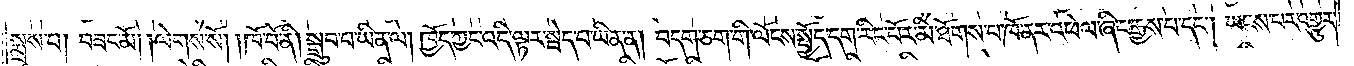སྨྲས་པ། བཟང་མོ། །ལེགས་སོ། །ཁོ་བོ་ནི། སྒྲུབ་པ་ཡིན་ལ། ཁྱོད་ཀྱང་འདི་ལྟར་སྦེད་པ་ཡིན་ན། བདག་ཅག་གི་ལོངས་སྤྱོད་དག་རིང་པོར་མི་ཐོགས་པ་ཁོ་ནར་འཕེལ་ཞིང་རྒྱས་པ་དང༌། ཡངས་པར་འགྱུར་
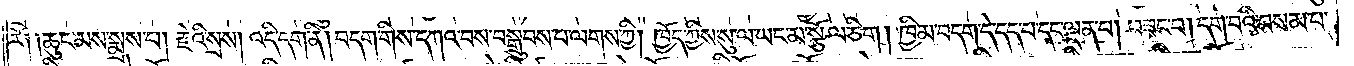རོ། །ཆུང་མས་སྨྲས་པ། རྗེའི་སྲས། འདི་དག་ནི། བདག་གིས་དཀའ་བས་བསྒྲུབས་པ་ལགས་ཀྱི། ཁྱོད་ཀྱིས་སུ་ལ་ཡང་མ་སྩོལ་ཅིག །ཁྱིམ་བདག་དེ་དད་པ་དང་ལྡན་པ། བཟང་བ། དགེ་བའི་བསམ་པ་
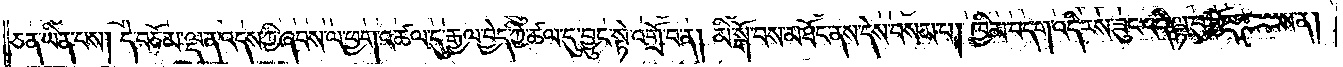ཅན་ཡིན་པས། དེ་བཅོམ་ལྡན་འདས་ཀྱི་ཞབས་ལ་ཕྱག་འཚལ་དུ་རྒྱལ་བྱེད་ཀྱི་ཚལ་དུ་བྱུང་སྟེ་འགྲོ་བ་ན། མི་སྒོ་བས་མཐོང་ནས་དེས་བསམ་པ། ཁྱིམ་བདག་འདི་རས་ཟུང་འདི་ལྟ་བུ་གྱོན་པ་ལས་ན།
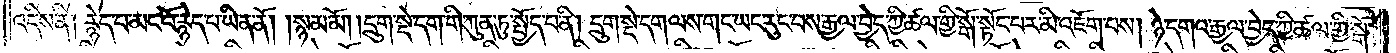འདིས་ནི། རྙེད་པ་མང་པོ་རྙེད་པ་ཡིན་ནོ། །སྙམ་མོ། །དྲུག་སྡེ་དག་གི་ཀུན་ཏུ་སྤྱོད་པ་ནི། དྲུག་སྡེ་དག་ལས་གང་ཡང་རུང་བས་རྒྱལ་བྱེད་ཀྱི་ཚལ་གྱི་སྒོ་སྟོང་པར་མི་འཇོག་པས། ཉེ་དགའ་རྒྱལ་བྱེད་ཀྱི་ཚལ་གྱི་སྒོ་
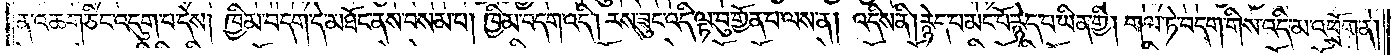ན་འཆག་ཅིང་འདུག་པ་དེས། ཁྱིམ་བདག་དེ་མཐོང་ནས་བསམ་པ། ཁྱིམ་བདག་འདི། རས་ཟུང་འདི་ལྟ་བུ་གྱོན་པ་ལས་ན། འདིས་ནི། རྙེད་པ་མང་པོ་རྙེད་པ་ཡིན་གྱི། གལ་ཏེ་བདག་གིས་འདི་མ་འཕྲོག་ན།
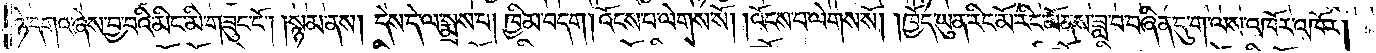ཉེ་དགའ་ཞེས་བྱ་བའི་མིང་མི་གཟུང་ངོ༌། །སྙམ་ནས། དེས་དེ་ལ་སྨྲས་པ། ཁྱིམ་བདག །འོངས་པ་ལེགས་སོ། །འོངས་པ་ལེགས་སོ། །ཁྱོད་ཡུན་རིང་མོ་རིང་མོ་ནས་ཟླ་བ་བཞིན་དུ་ག་ལས་འཁོར་འཁོར།
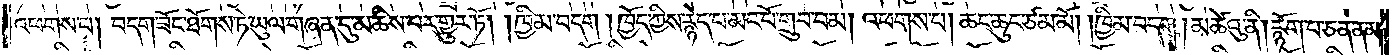འཕགས་པ། བདག་ཟོང་ཐོགས་ཏེ་ཡུལ་གཞན་དུ་མཆིས་པར་གྱུར་ཏོ། །ཁྱིམ་བདག །ཁྱོད་ཀྱིས་རྙེད་པ་མང་པོ་གྲུབ་བམ། འཕགས་པ། ཆང་ཆུང་ཙམ་མོ། །ཁྱིམ་བདག །མཚེའུ་ནི། རྙོག་པ་ཅན་ནམ།
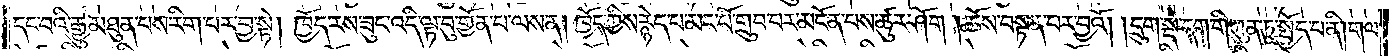དང་བའི་རྒྱུ་མཐུན་པས་རིག་པར་བྱ་སྟེ། ཁྱོད་རས་ཟུང་འདི་ལྟ་བུ་གྱོན་པ་ལས་ན། ཁྱོད་ཀྱིས་རྙེད་པ་མང་པོ་གྲུབ་པར་མངོན་པས་ཚུར་ཤོག །ཆོས་བསྟན་པར་བྱའོ། །དྲུག་སྡེ་དག་གི་ཀུན་ཏུ་སྤྱོད་པ་ནི། གལ་
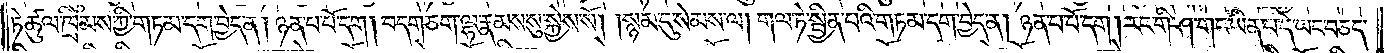ཏེ་ཚུལ་ཁྲིམས་ཀྱི་གཏམ་དག་བྱེད་ན། ཉན་པ་པོ་དག །བདག་ཅག་ལྷ་རྣམས་སུ་སྐྱེས་སོ། །སྙམ་དུ་སེམས་ལ། གལ་ཏེ་སྦྱིན་པའི་གཏམ་དག་བྱེད་ན། ཉན་པ་པོ་དག །རང་གི་ཤ་གང་ཡིན་པ་དེ་ཡང་བཅད་
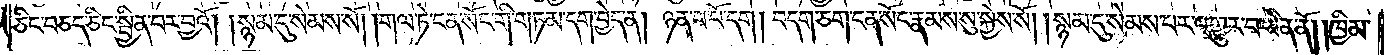ཅིང་བཅད་ཅིང་སྦྱིན་པར་བྱའོ། །སྙམ་དུ་སེམས་སོ། །གལ་ཏེ་ངན་སོང་གི་གཏམ་དག་བྱེད་ན། ཉན་པ་པོ་དག །བདག་ཅག་ངན་སོང་རྣམས་སུ་སྐྱེས་སོ། །སྙམ་དུ་སེམས་པར་འགྱུར་བ་ཡིན་ནོ། །ཁྱིམ་
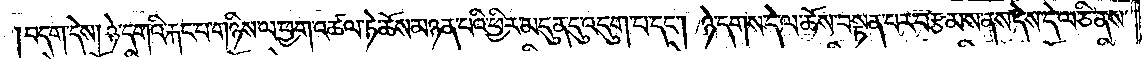བདག་དེས། ཉེ་དགའི་རྐང་པ་གཉིས་ལ་ཕྱག་འཚལ་ཏེ་ཆོས་མཉན་པའི་ཕྱིར་མདུན་དུ་འདུག་པ་དང༌། ཉེ་དགས་དེ་ལ་ཆོས་བསྟན་པར་བརྩམས་ནས་དེས་དེ་ལ་ཅི་ནས་
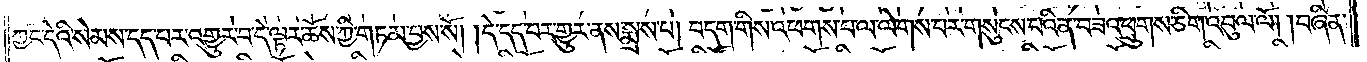ཀྱང་དེའི་སེམས་དད་པར་འགྱུར་བ་དེ་ལྟར་ཆོས་ཀྱི་གཏམ་བྱས་སོ། །དེ་དད་པར་གྱུར་ནས་སྨྲས་པ། བདག་གིས་འཕགས་པ་ལ་ལེགས་པར་གསུངས་པའི་ན་བཟའ་ཕྲུགས་ཅིག་འབུལ་ལོ། །བཞིན་
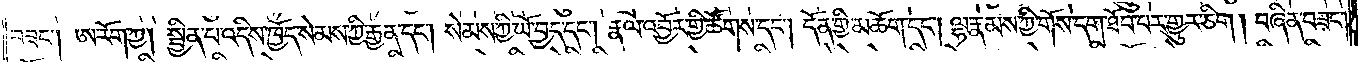བཟང༌། ཨ་རོག་ཀྱ། སྦྱིན་པ་འདིས་ཁྱོད་སེམས་ཀྱི་རྒྱན་དང༌། སེམས་ཀྱི་ཡོ་བྱད་དང༌། རྣལ་འབྱོར་གྱི་ཚོགས་དང༌། དོན་གྱི་མཆོག་དང༌། ལྷ་རྣམས་ཀྱི་གོས་དག་ཐོབ་པར་གྱུར་ཅིག། བཞིན་བཟང་
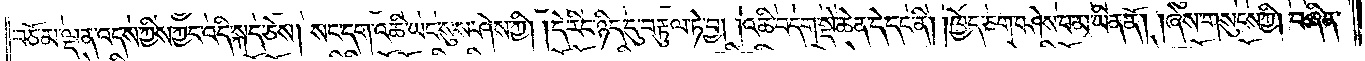བཅོམ་ལྡན་འདས་ཀྱིས་ཀྱང་འདི་སྐད་ཅེས། སང་དག་འཆི་ཡང་སུས་ཤེས་ཀྱི། །དེ་རིང་ཉིད་དུ་བརྟུལ་ཏེ་བྱ། །འཆི་བདག་སྡེ་ཆེན་དེ་དང་ནི། །ཁྱེད་ཅག་བཤེས་པ་མ་ཡིན་ནོ། །ཞེས་གསུངས་ཀྱི། བཞིན་
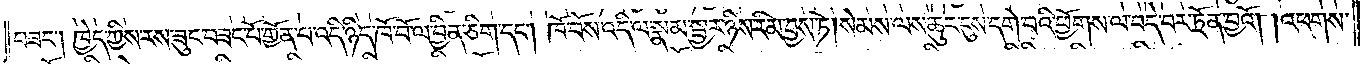བཟང༌། ཁྱེད་ཀྱིས་རས་ཟུང་བཟང་པོ་གྱོན་པ་འདི་ཉིད་ཁོ་བོ་ལ་བྱིན་ཅིག་དང༌། ཁོ་བོས་འདི་ལ་སྣམ་སྦྱར་ཉིས་རིམ་བྱས་ཏེ། སེམས་ལས་ཆུང་དུས་དགེ་བའི་ཕྱོགས་ལ་བདེ་བར་ཏྲོན་བྱའོ། །འཕགས་
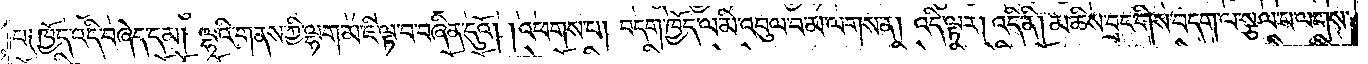པ༑ ཁྱོད་འདི་བཞེད་དམ། ལྷའི་གནས་ཀྱི་ལྷག་མ་ཇི་ལྟ་བ་བཞིན་དུའོ། །འཕགས་པ། བདག་ཁྱོད་ལ་མི་འབུལ་བ་མ་ལགས་ན། འདི་ལྟར། འདི་ནི། མཆིས་བྲང་གིས་བདག་ལ་སྩལ་པ་ལགས་
